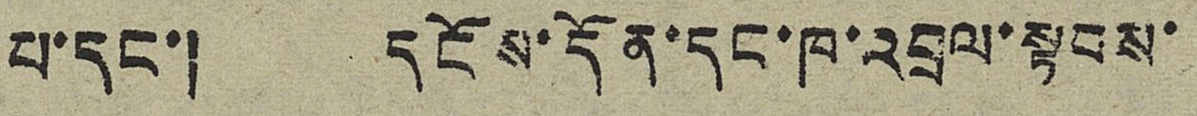པ་དང་། དངོས་དོན་དང་ཁ་འབྲལ་སྟབས་
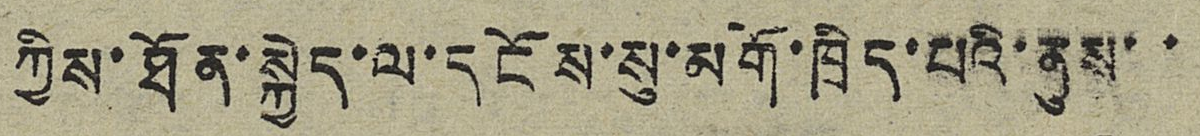ཀྱིས་ཐོན་སྐྱེད་ལ་དངོས་སུ་མགོ་ཁྲིད་པའི་ནུས་་
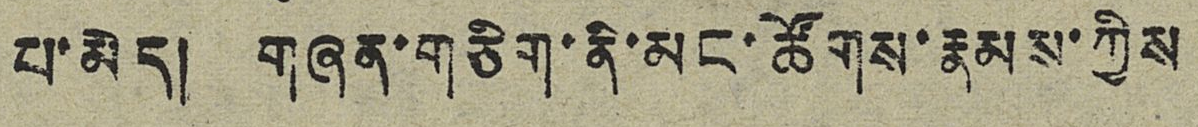པ་མེད། གཞན་གཅིག་ནི་མང་ཚོགས་རྣམས་ཀྱིས
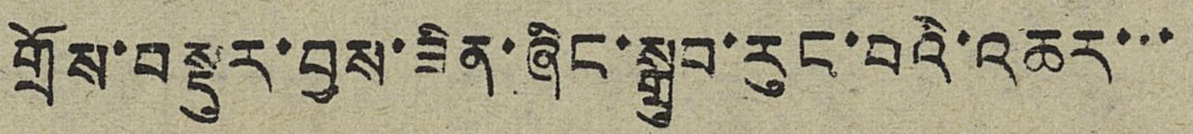གྲོས་བསྡུར་བྱས་ཟིན་ཞིང་སྒྲུབ་རུང་བའི་འཆར་་་
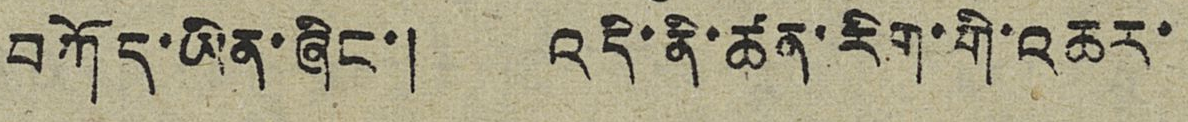བཀོད་ཡིན་ཞིང་། འདི་ནི་ཚན་རིག་གི་འཆར་
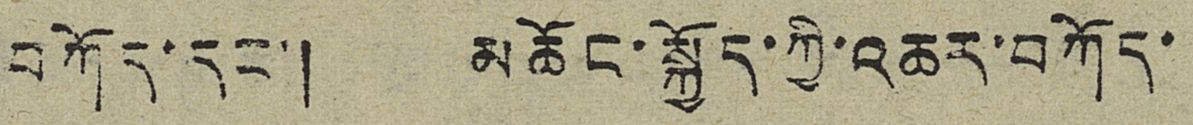བཀོད་དང་། མཆོང་སྐྱོད་ཀྱི་འཆར་བཀོད་
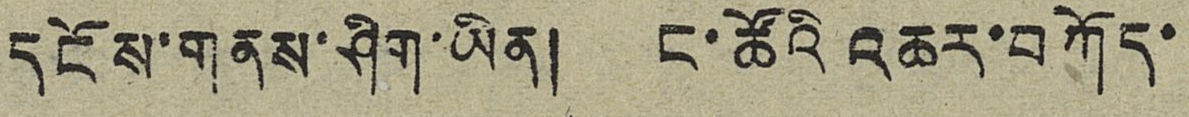དངོས་གནས་ཤིག་ཡིན། ང་ཚོའི འཆར་བཀོད་
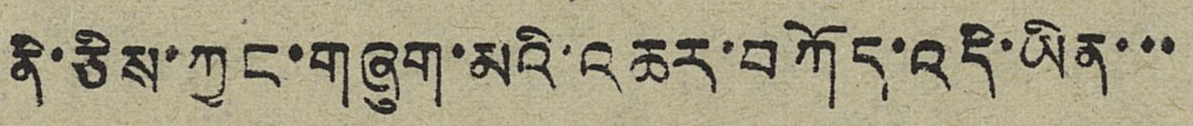ནི་ཅིས་ཀྱང་གཞུག་མའི་འཆར་བཀོད་འདི་ཡིན་་་
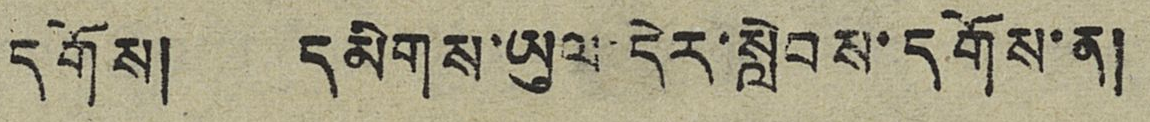དགོས། དམིགས་ཡུལ་དེར་སླེབས་དགོས་ན།
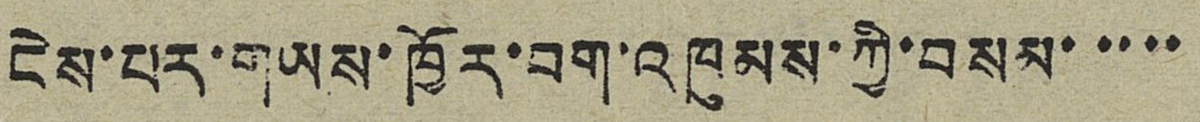ངེས་པར་གཡས་ཁྱོར་བག་འཁུམས་ཀྱི་བསམ་་་་་
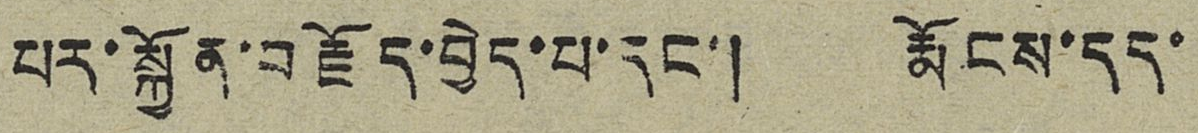པར་སྐྱོན་བརྗོད་བྱེད་པ་དང་། རྨོངས་དད་
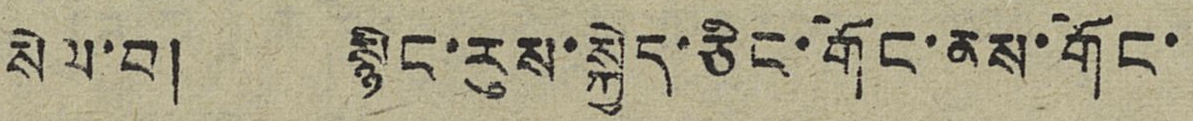སེལ་བ། སྙིང་རུས་སྐྱེད་ཅིང་གོང་ནས་གོང་
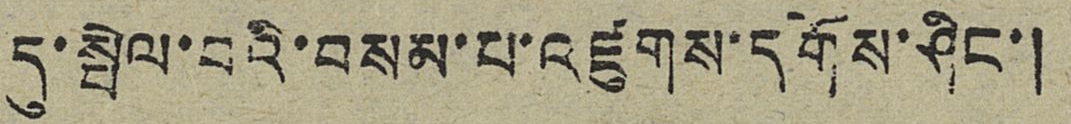དུ་སྤེལ་བའི་བསམ་པ་འཛུགས་དགོས་ཤིང་།
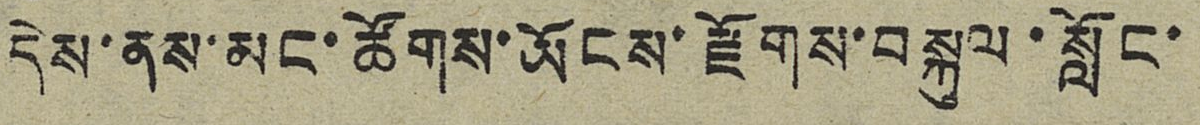དེས་ནས་མང་ཚོགས་ཡོངས་རྫོགས་བསྐུལ་སློང་
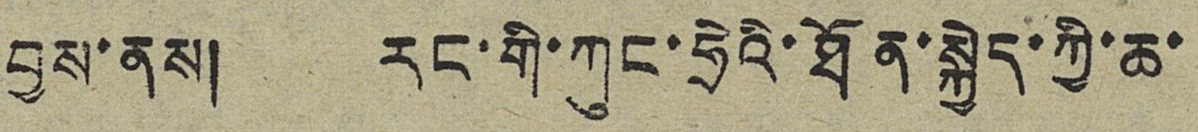བྱས་ནས། རང་གི་ཀུང་ཧྲེའི་ཐོན་སྐྱེད་ཀྱི་ཆ་
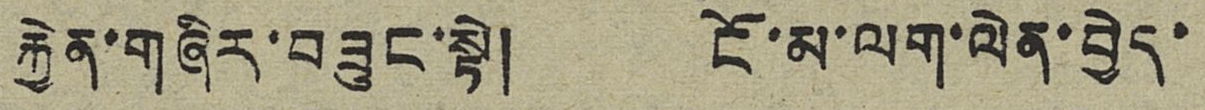རྐྱེན་གཞིར་བཟུང་སྟེ། ངོ་མ་ལག་ལེན་བྱེད་
